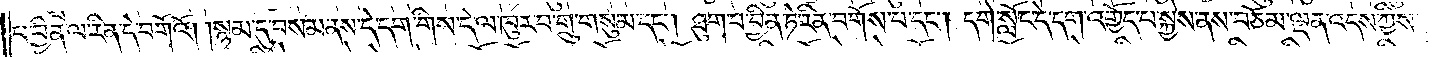པ་བྱིན་ལ་རིན་དེ་བགོའོ། །སྙམ་དུ་བསམ་ནས་དེ་དག་གིས་དེ་ལ་ཁུར་བ་གྲུ་གསུམ་དང༌། ཐུག་པ་བྱིན་ཏེ་རིན་བགོས་པ་དང༌། དགེ་སློང་དེ་དག་འགྱོད་པ་སྐྱེས་ནས་བཅོམ་ལྡན་འདས་ཀྱིས་
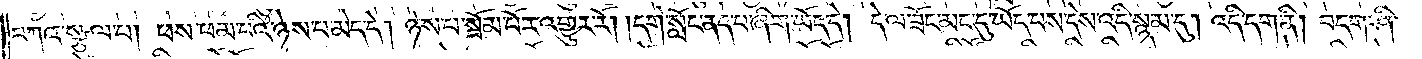བཀའ་སྩལ་པ། ཕས་ཕམ་པའི་ཉེས་པ་མེད་དེ། ཉེས་པ་སྦོམ་པོར་འགྱུར་རོ། །དགེ་སློང་ནད་པ་ཞིག་ཡོད་དེ། དེ་ལ་ཟོང་མང་དུ་ཡོད་པས་དེས་འདི་སྙམ་དུ། འདི་དག་ནི། བདག་ཤི་
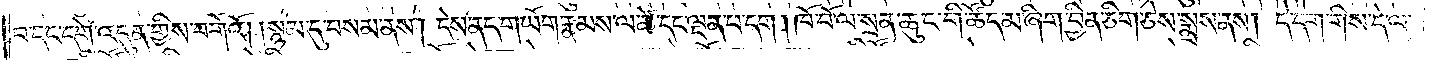བ་དང་དགེ་འདུན་གྱིས་བགོའོ། །སྙམ་དུ་བསམ་ནས། དེས་ནད་གཡོག་རྣམས་ལ་ཚེ་དང་ལྡན་པ་དག །ཁོ་བོ་ལ་སྲན་ཆུང་གི་ཚོད་མ་ཞིག་བྱིན་ཅིག་ཅེས་སྨྲས་ནས། དེ་དག་གིས་དེ་ལ་
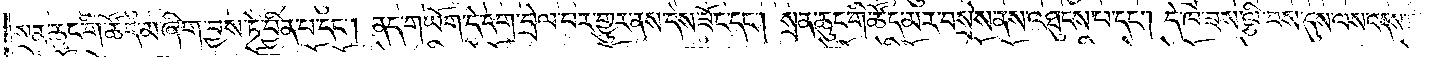སྲན་ཆུང་གི་ཚོད་མ་ཞིག་བྱས་ཏེ་བྱིན་པ་དང༌། ནད་གཡོག་དེ་དག་བྲེལ་བར་གྱུར་ནས་དེས་ཟོང་དང༌། སྲན་ཆུང་གི་ཚོད་མར་བསྲེས་ནས་འཐུངས་པ་དང༌། དེ་ཁ་ཟས་ལྕི་བས་དུས་ལས་འདས་ཏེ་
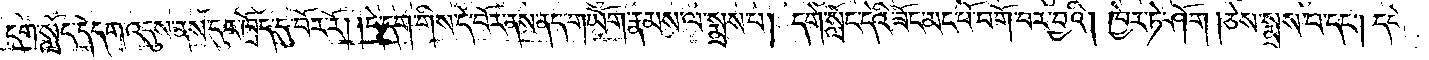དགེ་སློང་དེ་དག་འདུས་ནས་དུར་ཁྲོད་དུ་བོར་རོ། །དེ་དག་གིས་དེ་བོར་ནས་ནད་གཡོག་རྣམས་ལ་སྨྲས་པ། དགེ་སློང་དེའི་ཟོང་མང་པོ་བགོ་བར་བྱའི། ཁྱེར་ཏེ་ཤོག །ཅེས་སྨྲས་པ་དང༌། དགེ་
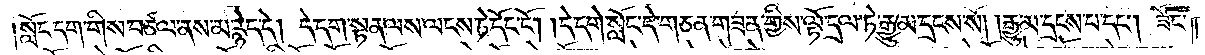སློང་དག་གིས་བཙལ་ནས་མ་རྙེད་དེ། དེ་དག་སྟན་ལས་ལངས་ཏེ་དོང་ངོ༌། །དེ་དགེ་སློང་དེ་གཅན་གཟན་གྱིས་ལྟོ་དྲལ་ཏེ་རྒྱུ་མ་དྲངས་སོ། །རྒྱུ་མ་དྲངས་པ་དང༌། ཟོང་
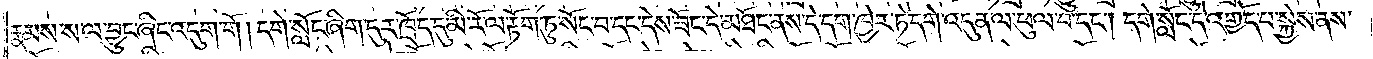རྣམས་ས་ལ་བྱུང་ཞིང་འདུག་གོ །དགེ་སློང་ཞིག་དུར་ཁྲོད་དུ་མི་རོ་ལ་རྟོག་ཏུ་སོང་བ་དང་དེས་ཟོང་དེ་མཐོང་ནས་དེ་དག་ཁྱེར་ཏེ་དགེ་འདུན་ལ་ཕུལ་བ་དང༌། དགེ་སློང་དེ་འགྱོད་པ་སྐྱེས་ནས་
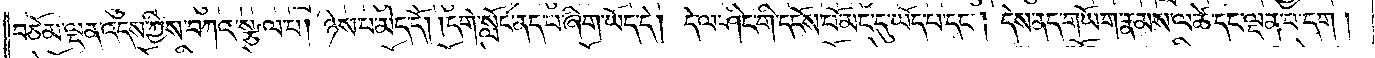བཅོམ་ལྡན་འདས་ཀྱིས་བཀའ་སྩལ་པ། ཉེས་པ་མེད་དོ། །དགེ་སློང་ནད་པ་ཞིག་ཡོད་དེ། དེ་ལ་ཤིང་གི་དངོས་པོ་མང་དུ་ཡོད་པ་དང༌། དེས་ནད་གཡོག་རྣམས་ལ་ཚེ་དང་ལྡན་པ་དག །
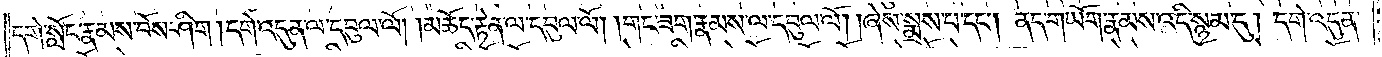དགེ་སློང་རྣམས་བོས་ཤིག །དགེ་འདུན་ལ་དབུལ་ལོ། །མཆོད་རྟེན་ལ་དབུལ་ལོ། །གང་ཟག་རྣམས་ལ་དབུལ་ལོ། །ཞེས་སྨྲས་པ་དང༌། ནད་གཡོག་རྣམས་འདི་སྙམ་དུ། དགེ་འདུན་
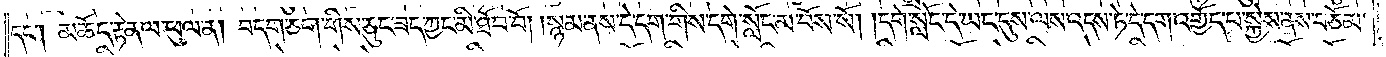དང༌། མཆོད་རྟེན་ལ་ཕུལ་ན། བདག་ཅག་གིས་ཅུང་ཟད་ཀྱང་མི་ཐོབ་བོ། །སྙམ་ནས་དེ་དག་གིས་དགེ་སློང་མ་བོས་སོ། །དགེ་སློང་དེ་ཡང་དུས་ལས་འདས་ཏེ་དེ་དག་འགྱོད་པ་སྐྱེས་ནས་བཅོམ་
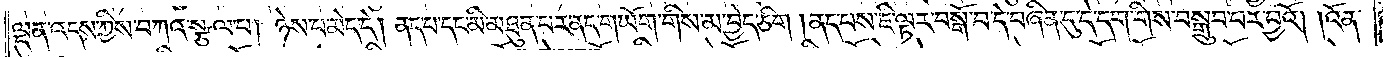ལྡན་འདས་ཀྱིས་བཀའ་སྩལ་པ། ཉེས་པ་མེད་དེ། ནད་པ་དང་མི་མཐུན་པར་ནད་གཡོག་གིས་མ་བྱེད་ཅིག །ནད་པས་ཇི་ལྟར་བསྒོ་བ་དེ་བཞིན་དུ་དེ་དག་གིས་བསྒྲུབ་པར་བྱའོ། །འོན་
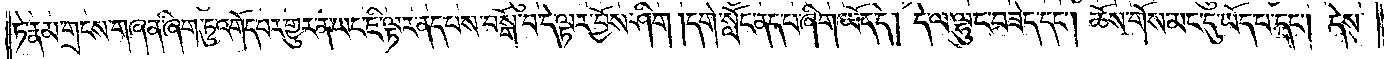ཏེ་རྣམ་གྲངས་གཞན་ཞིག་ཏུ་འགོད་པར་གྱུར་ན་ཡང་ཇི་ལྟར་ནད་པས་བསྒོ་བ་དེ་ལྟར་བྱོས་ཤིག །དགེ་སློང་ནད་པ་ཞིག་ཡོད་དེ། དེ་ལ་ལྷུང་བཟེད་དང༌། ཆོས་གོས་མང་དུ་ཡོད་པ་དང༌། དེས་
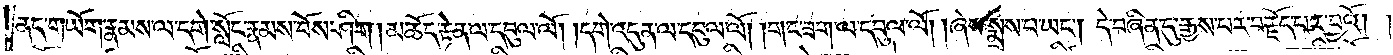ནད་གཡོག་རྣམས་ལ་དགེ་སློང་རྣམས་བོས་ཤིག །མཆོད་རྟེན་ལ་དབུལ་ལོ། །དགེ་འདུན་ལ་དབུལ་ལོ། །གང་ཟག་ལ་དབུལ་ལོ། །ཞེས་སྨྲས་པ་ཡང༌། དེ་བཞིན་དུ་རྒྱས་པར་བརྗོད་པར་བྱའོ། །
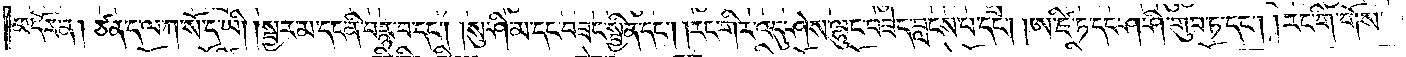མདོར་ན། ཙན་ད་ལ་ཀ་སོ་ད་ཡི། །སྦྱར་མ་དང་ནི་བརྙ་བ་དང༌། །སུ་ཤི་མ་དང་བཟང་སྦྱིན་དང༌། །རང་གིར་འདུ་ཤེས་ལྷུང་བཟེད་བླངས་པ་དང༌། །ཨ་ཛི་ཏ་དང་ཤ་ཤི་གུབ་ཏ་དང༌། །རང་གི་གོས་
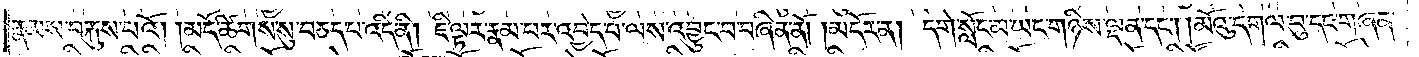རྣམས་བརྐུས་པའོ། །མདོ་ཚིགས་སུ་བཅད་པ་འདི་ནི། ཇི་ལྟར་རྣམ་པར་འབྱེད་པ་ལས་འབྱུང་བ་བཞིན་ནོ། །མདོར་ན། དགེ་སློང་མ་ཡང་གཉིས་ལྡན་དང༌། །མོའུ་དགལ་བུ་དང་གཞན་
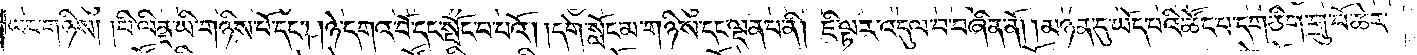ཡང་གཉིས། །པི་ལིནྡ་ཡི་གཉིས་པོ་དང༌། །ཉེ་དགའ་བོ་དང་སྤོང་བ་པའོ། །དགེ་སློང་མ་གཉིས་དང་ལྡན་པ་ནི། ཇི་ལྟར་འདུལ་བ་བཞིན་ནོ། །མཉན་དུ་ཡོད་པའི་ཚོང་པ་དག་ཅིག་གྲུ་བོ་ཆེར་
